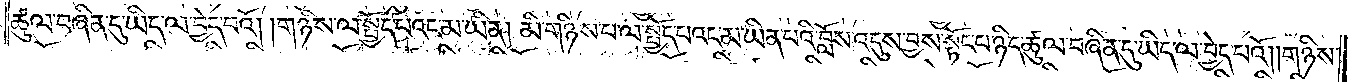ཚུལ་བཞིན་དུ་ཡིད་ལ་བྱེད་པའོ། །གཉིས་ལ་སྤྱོད་པའང་མ་ཡིན། མི་གཉིས་པ་ལ་སྤྱོད་པའང་མ་ཡིན་པའི་བློས་འདུས་བྱས་སྟོང་པ་ཉིད་ཚུལ་བཞིན་དུ་ཡིད་ལ་བྱེད་པའོ། །གཉིས་
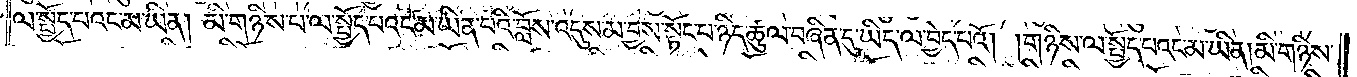ལ་སྤྱོད་པའང་མ་ཡིན། མི་གཉིས་པ་ལ་སྤྱོད་པའང་མ་ཡིན་པའི་བློས་འདུས་མ་བྱས་སྟོང་པ་ཉིད་ཚུལ་བཞིན་དུ་ཡིད་ལ་བྱེད་པའོ། །གཉིས་ལ་སྤྱོད་པའང་མ་ཡིན། མི་གཉིས་
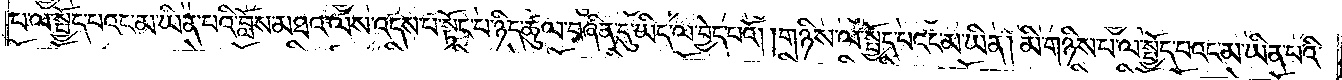པ་ལ་སྤྱོད་པའང་མ་ཡིན་པའི་བློས་མཐའ་ལས་འདས་པ་སྟོང་པ་ཉིད་ཚུལ་བཞིན་དུ་ཡིད་ལ་བྱེད་པའོ། །གཉིས་ལ་སྤྱོད་པའང་མ་ཡིན། མི་གཉིས་པ་ལ་སྤྱོད་པའང་མ་ཡིན་པའི་
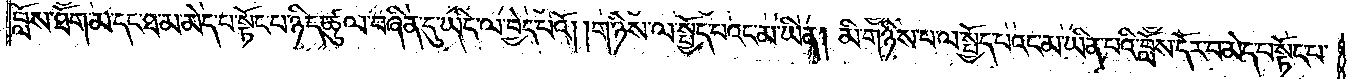བློས་ཐོག་མ་དང་ཐ་མ་མེད་པ་སྟོང་པ་ཉིད་ཚུལ་བཞིན་དུ་ཡིད་ལ་བྱེད་པའོ། །གཉིས་ལ་སྤྱོད་པའང་མ་ཡིན། མི་གཉིས་པ་ལ་སྤྱོད་པའང་མ་ཡིན་པའི་བློས་དོར་བ་མེད་པ་སྟོང་པ་
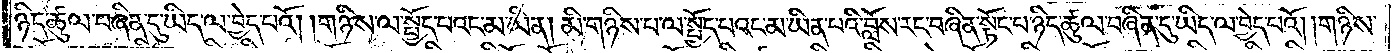ཉིད་ཚུལ་བཞིན་དུ་ཡིད་ལ་བྱེད་པའོ། །གཉིས་ལ་སྤྱོད་པའང་མ་ཡིན། མི་གཉིས་པ་ལ་སྤྱོད་པའང་མ་ཡིན་པའི་བློས་རང་བཞིན་སྟོང་པ་ཉིད་ཚུལ་བཞིན་དུ་ཡིད་ལ་བྱེད་པའོ། །གཉིས་
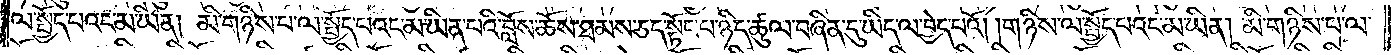ལ་སྤྱོད་པའང་མ་ཡིན། མི་གཉིས་པ་ལ་སྤྱོད་པའང་མ་ཡིན་པའི་བློས་ཆོས་ཐམས་ཅད་སྟོང་པ་ཉིད་ཚུལ་བཞིན་དུ་ཡིད་ལ་བྱེད་པའོ། །གཉིས་ལ་སྤྱོད་པའང་མ་ཡིན། མི་གཉིས་པ་ལ་
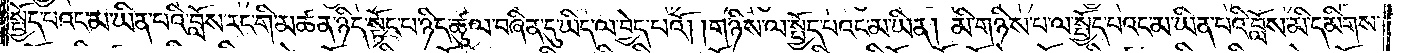སྤྱོད་པའང་མ་ཡིན་པའི་བློས་རང་གི་མཚན་ཉིད་སྟོང་པ་ཉིད་ཚུལ་བཞིན་དུ་ཡིད་ལ་བྱེད་པའོ། །གཉིས་ལ་སྤྱོད་པའང་མ་ཡིན། མི་གཉིས་པ་ལ་སྤྱོད་པའང་མ་ཡིན་པའི་བློས་མི་དམིགས་
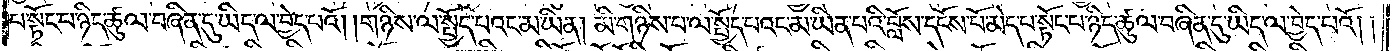པ་སྟོང་པ་ཉིད་ཚུལ་བཞིན་དུ་ཡིད་ལ་བྱེད་པའོ། །གཉིས་ལ་སྤྱོད་པའང་མ་ཡིན། མི་གཉིས་པ་ལ་སྤྱོད་པའང་མ་ཡིན་པའི་བློས་དངོས་པོ་མེད་པ་སྟོང་པ་ཉིད་ཚུལ་བཞིན་དུ་ཡིད་ལ་བྱེད་པའོ། །
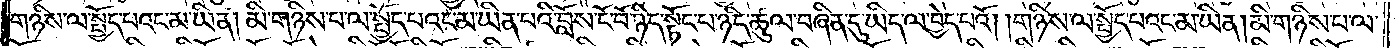གཉིས་ལ་སྤྱོད་པའང་མ་ཡིན། མི་གཉིས་པ་ལ་སྤྱོད་པའང་མ་ཡིན་པའི་བློས་ངོ་བོ་ཉིད་སྟོང་པ་ཉིད་ཚུལ་བཞིན་དུ་ཡིད་ལ་བྱེད་པའོ། །གཉིས་ལ་སྤྱོད་པའང་མ་ཡིན། མི་གཉིས་པ་ལ་
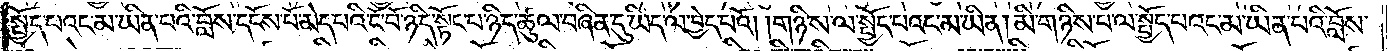སྤྱོད་པའང་མ་ཡིན་པའི་བློས་དངོས་པོ་མེད་པའི་ངོ་བོ་ཉིད་སྟོང་པ་ཉིད་ཚུལ་བཞིན་དུ་ཡིད་ལ་བྱེད་པའོ། །གཉིས་ལ་སྤྱོད་པའང་མ་ཡིན། མི་གཉིས་པ་ལ་སྤྱོད་པའང་མ་ཡིན་པའི་བློས་
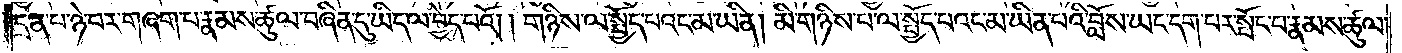དྲན་པ་ཉེ་བར་གཞག་པ་རྣམས་ཚུལ་བཞིན་དུ་ཡིད་ལ་བྱེད་པའོ། །གཉིས་ལ་སྤྱོད་པའང་མ་ཡིན། མི་གཉིས་པ་ལ་སྤྱོད་པའང་མ་ཡིན་པའི་བློས་ཡང་དག་པར་སྤོང་བ་རྣམས་ཚུལ་
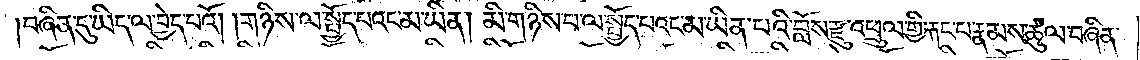བཞིན་དུ་ཡིད་ལ་བྱེད་པའོ། །གཉིས་ལ་སྤྱོད་པའང་མ་ཡིན། མི་གཉིས་པ་ལ་སྤྱོད་པའང་མ་ཡིན་པའི་བློས་རྫུ་འཕྲུལ་གྱི་རྐང་པ་རྣམས་ཚུལ་བཞིན་
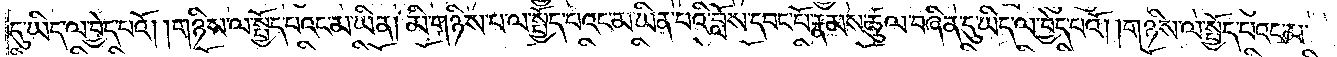དུ་ཡིད་ལ་བྱེད་པའོ། །གཉིས་ལ་སྤྱོད་པའང་མ་ཡིན། མི་གཉིས་པ་ལ་སྤྱོད་པའང་མ་ཡིན་པའི་བློས་དབང་པོ་རྣམས་ཚུལ་བཞིན་དུ་ཡིད་ལ་བྱེད་པའོ། །གཉིས་ལ་སྤྱོད་པའང་མ་
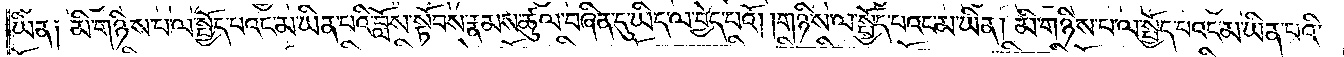ཡིན༑ མི་གཉིས་པ་ལ་སྤྱོད་པའང་མ་ཡིན་པའི་བློས་སྟོབས་རྣམས་ཚུལ་བཞིན་དུ་ཡིད་ལ་བྱེད་པའོ། །གཉིས་ལ་སྤྱོད་པའང་མ་ཡིན། མི་གཉིས་པ་ལ་སྤྱོད་པའང་མ་ཡིན་པའི་
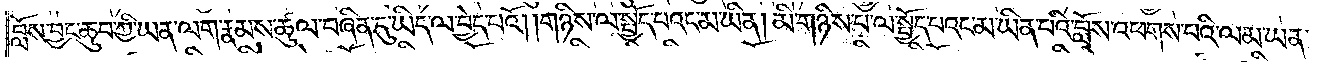བློས་བྱང་ཆུབ་ཀྱི་ཡན་ལག་རྣམས་ཚུལ་བཞིན་དུ་ཡིད་ལ་བྱེད་པའོ། །གཉིས་ལ་སྤྱོད་པའང་མ་ཡིན། མི་གཉིས་པ་ལ་སྤྱོད་པའང་མ་ཡིན་པའི་བློས་འཕགས་པའི་ལམ་ཡན་
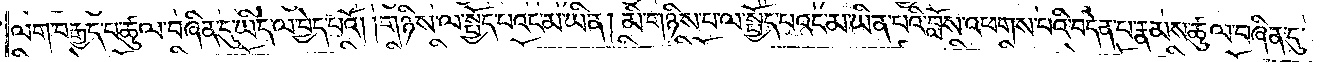ལག་བརྒྱད་པ་ཚུལ་བཞིན་དུ་ཡིད་ལ་བྱེད་པའོ། །གཉིས་ལ་སྤྱོད་པའང་མ་ཡིན། མི་གཉིས་པ་ལ་སྤྱོད་པའང་མ་ཡིན་པའི་བློས་འཕགས་པའི་བདེན་པ་རྣམས་ཚུལ་བཞིན་དུ་
